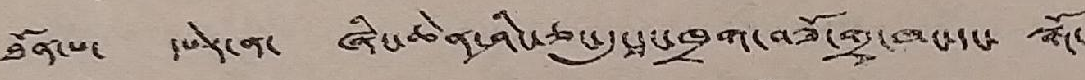ཐོན་པ་ དཔེར་ན་ ཞིང་ཆེན་ཤིང་ཅང་དུ་དང་ཁྲག་བཟོ་གྲྭ་ཁང་དང་ སྒོ་
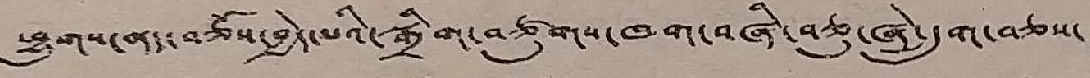ཕྱུགས་ནད་བཅོས་བྱེད་པའི་སྒྲིག་བཙུགས་ཁག་བཞི་བཅུ་ཞེ་དྲུག་བཅས་
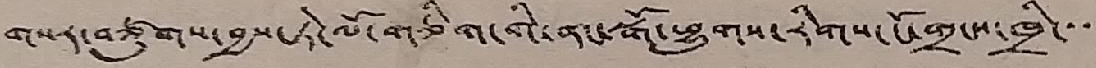གསར་བཙུགས་བྱས་ཏེ་ལོ་གཅིག་གི་ནང་སྒོ་ཕྱུགས་རིགས་ངོ་གྲངས་ཁྲི་་་
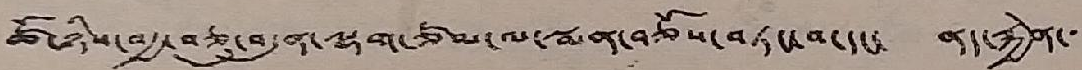ཚོ་ཉིས་བརྒྱ་བཅུ་བདུན་ལྷག་ཙམ་ལ་སྨན་བཅོས་བཏང་བ་དང་ ནད་རྐྱེན་་་
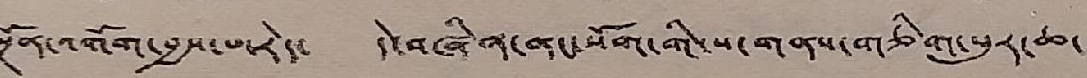སྔོན་འགོག་བྱས་པ་རེད་ དེ་བཞིན་ནང་སོག་གི་ས་གནས་གཅིག་པུར་ཆ་
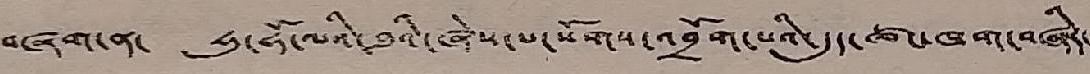བཞག་ན་ ཧུ་ཧོ་ལའི་ཐའི་ཞེས་པ་སོགས་འབྲོག་པའི་དུད་ཚང་ཁག་བཞིར་
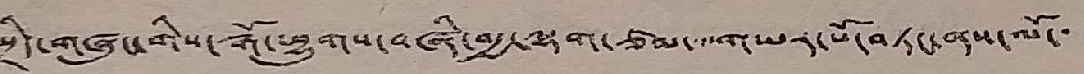སྲིད་གཞུང་གིས་སྒོ་ཕྱུགས་བཞི་བརྒྱ་ལྷག་ཙམ་གཡར་པོ་བཏང་ནས་ལོ་
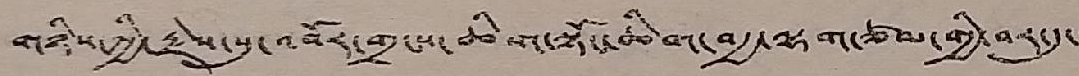གཉིས་ཀྱི་རྗེས་སུ་འབོར་གྲངས་ཆིག་སྟོང་ཆིག་བརྒྱ་ལྷག་ཙམ་གྱི་བར་དུ་་་
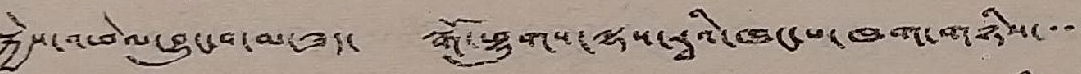སྐྱེས་འཕེལ་བྱུང་བ་མ་ཟད་ སྒོ་ཕྱུགས་ལྷས་རྭའི་ཁང་པ་ཁག་གཉིས་་་
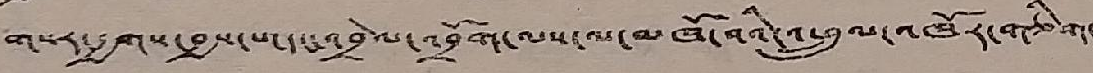གསར་རྒྱགས་བྱས་པ་དང་འབྲེལ་འབྲོག་ལས་ལ་མཁོ་བའི་འཕྲུལ་འཁོར་གཅིག་
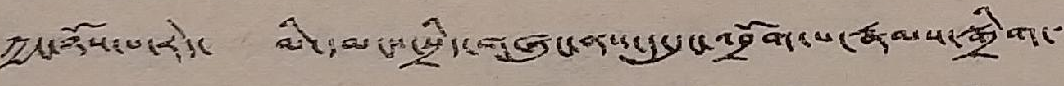ཀྱང་ཉོས་པ་རེད་ མི་དམངས་སྲིད་གཞུང་ནས་ད་དུང་འབྲོག་པ་རྣམས་སྒྲིག་་་
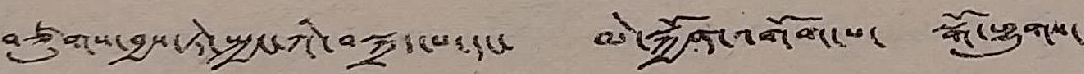བཙུགས་བྱས་ཏེ་སྤྱང་ཀི་བསྐྲད་པ་དང་ མེ་སྐྱོན་འགོག་པ་ སྒོ་ཕྱུགས་
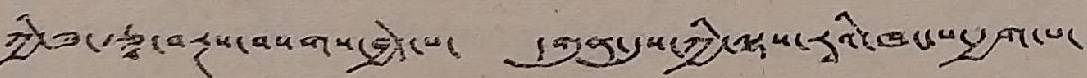ཀྱི་ཟ་རྩྭ་བརྔས་བསགས་བྱེད་པ་ དགུན་དུས་ཀྱི་ལྷས་རྭའི་ཁང་པ་རྒྱག་པ་
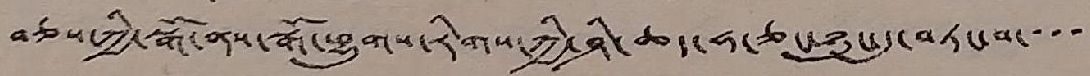བཅས་ཀྱི་སྒོ་ནས་སྒོ་ཕྱུགས་རིགས་ཀྱི་ཤི་ཆད་ཧ་ཅང་ཉུང་དུ་བཏང་བ་་་་
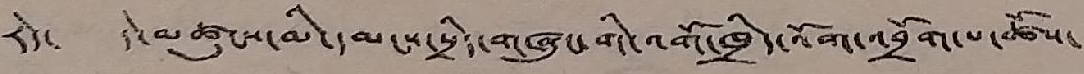རེད་ དེ་མཚུངས་མི་དམངས་སྲིད་གཞུང་གི་འགོ་ཁྲིད་འོག་འབྲོག་པ་ཚོས་
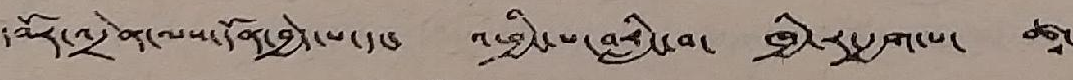དབོར་འདྲེན་ལས་དོན་བྱེད་པ་དང་ འཕྱིང་པ་བརླིང་བ་ ཁྱི་ར་རྒྱག་པ་ ཚ་
